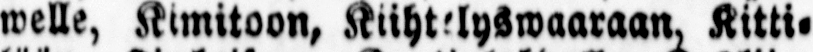welle, Kimitoon, Kiihtelyswaaraan, Kitti-
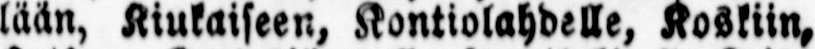lään, Kiukaiseen, Kontiolahdelle, Koskiin,
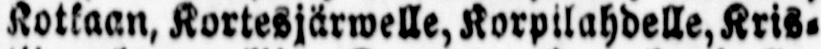Kotkaan, Kortesjärwelle, Korpilahdelle, Kris-
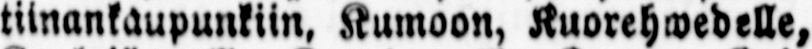tiinankaupunkiin, Kumoon, Kuorehwedelle,
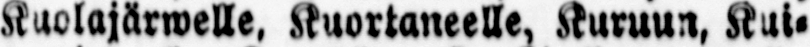Kuolajärwelle, Kuortaneelle, Kuruun, Kui-
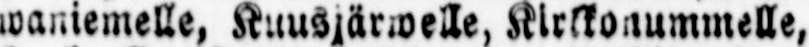waniemelle, Kuusjärwelle Kirkkonummelle,
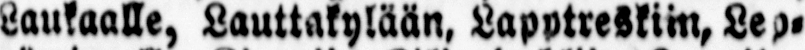Laukaalle, Lauttakylään, Lapptreskiin, Lep-
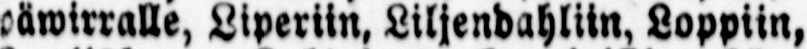päwirralle, Liperiin, Liljendahliin, Loppiin,
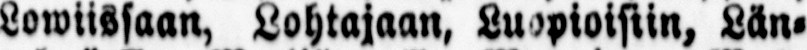Lowiissaan, Lohtajaan, Luopioisiin, Län-
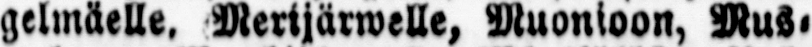gelmäelle, Merijärwelle, Muonioon, Mus-
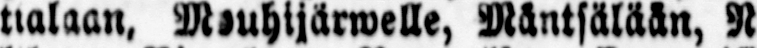tialaan, Mouhijärwelle, Mäntsälään, Nak-
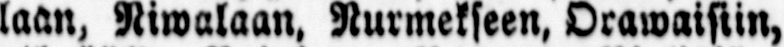kilaan, Niwalaan, Nurmekseen, Orawaisiiin,
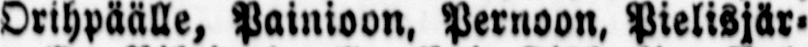Orihpäälle, Painioon, Pernoon, Pielisjär-
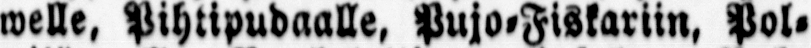welle, Pihtipudaalle, Pujo-Fiskariin, Pol-
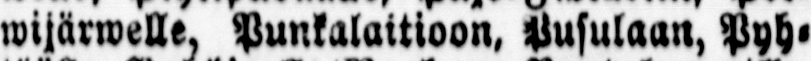wijärwelle, Punkalaitioon. Pusulaan, Pyh-
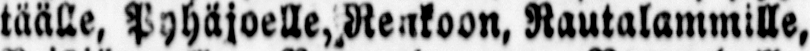täälle, Pyhäjoelle, Renkoon, Rautalammille,
